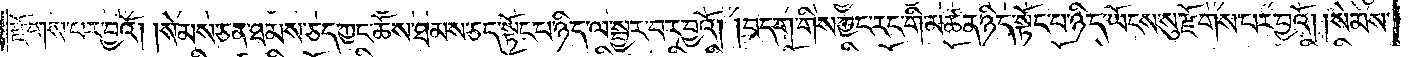རྫོགས་པར་བྱའོ། །སེམས་ཅན་ཐམས་ཅད་ཀྱང་ཆོས་ཐམས་ཅད་སྟོང་པ་ཉིད་ལ་སྦྱར་བར་བྱའོ། །བདག་གིས་ཀྱང་རང་གི་མཚན་ཉིད་སྟོང་པ་ཉིད་ཡོངས་སུ་རྫོགས་པར་བྱའོ། །སེམས་
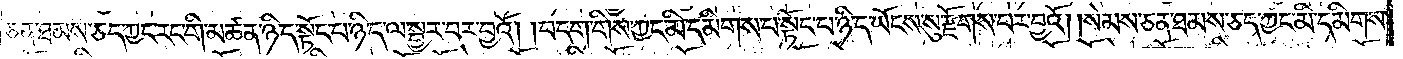ཅན་ཐམས་ཅད་ཀྱང་རང་གི་མཚན་ཉིད་སྟོང་པ་ཉིད་ལ་སྦྱར་བར་བྱའོ། །བདག་གིས་ཀྱང་མི་དམིགས་པ་སྟོང་པ་ཉིད་ཡོངས་སུ་རྫོགས་པར་བྱའོ། །སེམས་ཅན་ཐམས་ཅད་ཀྱང་མི་དམིགས་
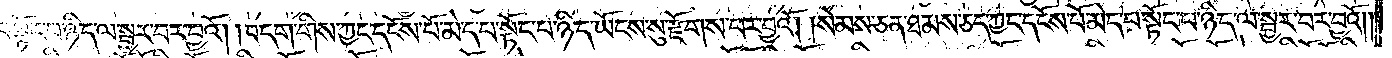པ་སྟོང་པ་ཉིད་ལ་སྦྱར་བར་བྱའོ། །བདག་གིས་ཀྱང་དངོས་པོ་མེད་པ་སྟོང་པ་ཉིད་ཡོངས་སུ་རྫོགས་པར་བྱའོ། །སེམས་ཅན་ཐམས་ཅད་ཀྱང་དངོས་པོ་མེད་པ་སྟོང་པ་ཉིད་ལ་སྦྱར་བར་བྱའོ། །
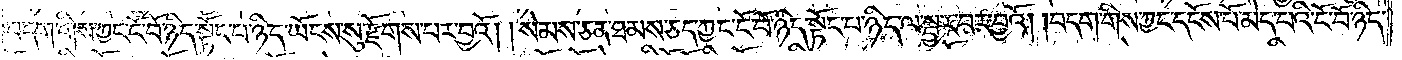བདག་གིས་ཀྱང་ངོ་བོ་ཉིད་སྟོང་པ་ཉིད་ཡོངས་སུ་རྫོགས་པར་བྱའོ། །སེམས་ཅན་ཐམས་ཅད་ཀྱང་ངོ་བོ་ཉིད་སྟོང་པ་ཉིད་ལ་སྦྱར་བར་བྱའོ། །བདག་གིས་ཀྱང་དངོས་པོ་མེད་པའི་ངོ་བོ་ཉིད་
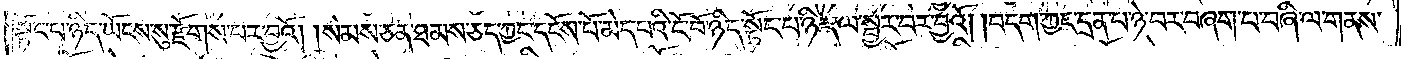སྟོང་པ་ཉིད་ཡོངས་སུ་རྫོགས་པར་བྱའོ། །སེམས་ཅན་ཐམས་ཅད་ཀྱང་དངོས་པོ་མེད་པའི་ངོ་བོ་ཉིད་སྟོང་པ་ཉིད་ལ་སྦྱར་བར་བྱའོ། །བདག་ཀྱང་དྲན་པ་ཉེ་བར་བཞག་པ་བཞི་ལ་གནས་
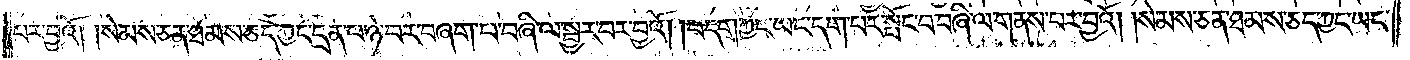པར་བྱའོ། །སེམས་ཅན་ཐམས་ཅད་ཀྱང་དྲན་པ་ཉེ་བར་བཞག་པ་བཞི་ལ་སྦྱར་བར་བྱའོ། །བདག་ཀྱང་ཡང་དག་པར་སྤོང་བ་བཞི་ལ་གནས་པར་བྱའོ། །སེམས་ཅན་ཐམས་ཅད་ཀྱང་ཡང་
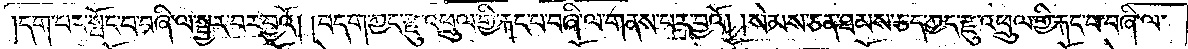དག་པར་སྤོང་བ་བཞི་ལ་སྦྱར་བར་བྱའོ། །བདག་ཀྱང་རྫུ་འཕྲུལ་གྱི་རྐང་པ་བཞི་ལ་གནས་པར་བྱའོ། །སེམས་ཅན་ཐམས་ཅད་ཀྱང་རྫུ་འཕྲུལ་གྱི་རྐང་པ་བཞི་ལ་
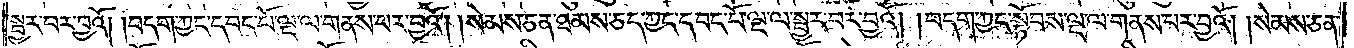སྦྱར་བར་བྱའོ། །བདག་ཀྱང་དབང་པོ་ལྔ་ལ་གནས་པར་བྱའོ། །སེམས་ཅན་ཐམས་ཅད་ཀྱང་དབང་པོ་ལྔ་ལ་སྦྱར་བར་བྱའོ། །བདག་ཀྱང་སྟོབས་ལྔ་ལ་གནས་པར་བྱའོ། །སེམས་ཅན་
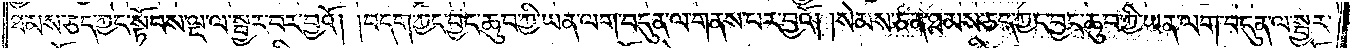ཐམས་ཅད་ཀྱང་སྟོབས་ལྔ་ལ་སྦྱར་བར་བྱའོ། །བདག་ཀྱང་བྱང་ཆུབ་ཀྱི་ཡན་ལག་བདུན་ལ་གནས་པར་བྱའོ། །སེམས་ཅན་ཐམས་ཅད་ཀྱང་བྱང་ཆུབ་ཀྱི་ཡན་ལག་བདུན་ལ་སྦྱར་
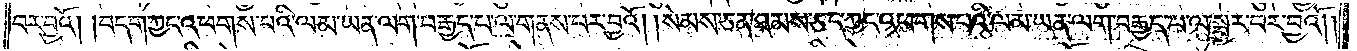བར་བྱའོ། །བདག་ཀྱང་འཕགས་པའི་ལམ་ཡན་ལག་བརྒྱད་པ་ལ་གནས་པར་བྱའོ། །སེམས་ཅན་ཐམས་ཅད་ཀྱང་འཕགས་པའི་ལམ་ཡན་ལག་བརྒྱད་པ་ལ་སྦྱར་བར་བྱའོ། །
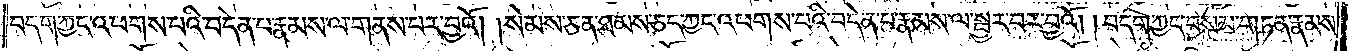བདག་ཀྱང་འཕགས་པའི་བདེན་པ་རྣམས་ལ་གནས་པར་བྱའོ། །སེམས་ཅན་ཐམས་ཅད་ཀྱང་འཕགས་པའི་བདེན་པ་རྣམས་ལ་སྦྱར་བར་བྱའོ། །བདག་ཀྱང་བསམ་གཏན་རྣམས་
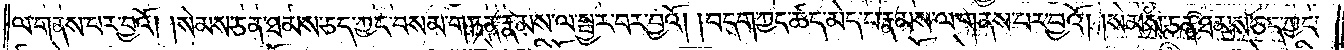ལ་གནས་པར་བྱའོ། །སེམས་ཅན་ཐམས་ཅད་ཀྱང་བསམ་གཏན་རྣམས་ལ་སྦྱར་བར་བྱའོ། བདག་ཀྱང་ཚད་མེད་པ་རྣམས་ལ་གནས་པར་བྱའོ། །སེམས་ཅན་ཐམས་ཅད་ཀྱང་
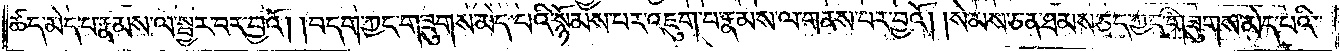ཚད་མེད་པ་རྣམས་ལ་སྦྱར་བར་བྱའོ། །བདག་ཀྱང་གཟུགས་མེད་པའི་སྙོམས་པར་འཇུག་པ་རྣམས་ལ་གནས་པར་བྱའོ། །སེམས་ཅན་ཐམས་ཅད་ཀྱང་གཟུགས་མེད་པའི་
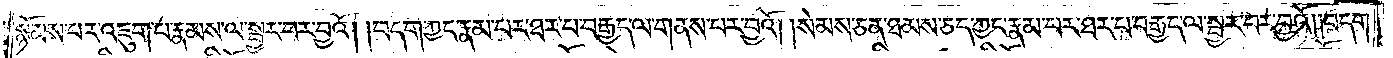སྙོམས་པར་འཇུག་པ་རྣམས་ལ་སྦྱར་བར་བྱའོ། །བདག་ཀྱང་རྣམ་པར་ཐར་བ་བརྒྱད་ལ་གནས་པར་བྱའོ། །སེམས་ཅན་ཐམས་ཅད་ཀྱང་རྣམ་པར་ཐར་པ་བརྒྱད་ལ་སྦྱར་བར་བྱའོ། །བདག་
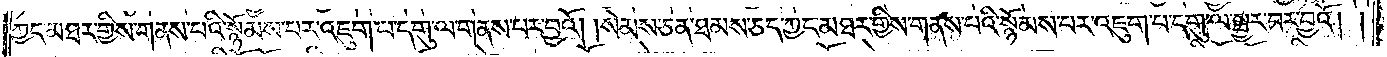ཀྱང་མཐར་གྱིས་གནས་པའི་སྙོམས་པར་འཇུག་པ་དགུ་ལ་གནས་པར་བྱའོ། །སེམས་ཅན་ཐམས་ཅད་ཀྱང་མཐར་གྱིས་གནས་པའི་སྙོམས་པར་འཇུག་པ་དགུ་ལ་སྦྱར་བར་བྱའོ། །
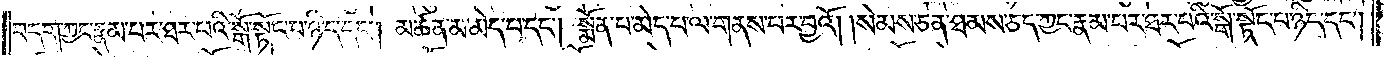བདག་ཀྱང་རྣམ་པར་ཐར་པའི་སྒོ་སྟོང་པ་ཉིད་དང༌། མཚན་མ་མེད་པ་དང༌། སྨོན་པ་མེད་པ་ལ་གནས་པར་བྱའོ། །སེམས་ཅན་ཐམས་ཅད་ཀྱང་རྣམ་པར་ཐར་པའི་སྒོ་སྟོང་པ་ཉིད་དང༌།
